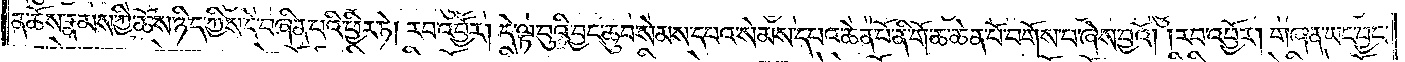ན་ཆོས་རྣམས་ཀྱི་ཆོས་ཉིད་ཀྱིས་དེ་བཞིན་པའི་ཕྱིར་ཏེ། རབ་འབྱོར། དེ་ལྟ་བུའི་བྱང་ཆུབ་སེམས་དཔའ་སེམས་དཔའ་ཆེན་པོ་ནི་གོ་ཆ་ཆེན་པོ་བགོས་པ་ཞེས་བྱའོ། །རབ་འབྱོར། གཞན་ཡང་བྱང་
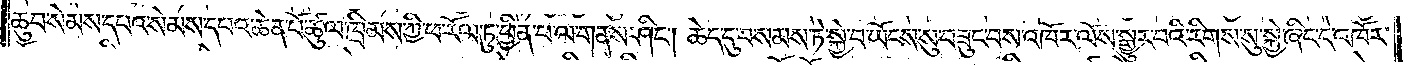ཆུབ་སེམས་དཔའ་སེམས་དཔའ་ཆེན་པོ་ཚུལ་ཁྲིམས་ཀྱི་ཕ་རོལ་ཏུ་ཕྱིན་པ་ལ་གནས་ཤིང༌། ཆེད་དུ་བསམས་ཏེ་སྐྱེ་བ་ཡོངས་སུ་བཟུང་བས་འཁོར་ལོས་སྒྱུར་བའི་རིགས་སུ་སྐྱེ་ཞིང་དེ་འཁོར་
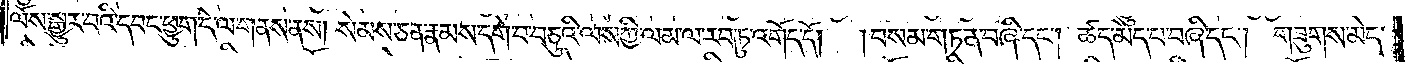ལོས་སྒྱུར་བའི་དབང་ཕྱུག་དེ་ལ་གནས་ནས། སེམས་ཅན་རྣམས་དགེ་བ་བཅུའི་ལས་ཀྱི་ལམ་ལ་རབ་ཏུ་འགོད་དོ། །བསམ་གཏན་བཞི་དང༌། ཚད་མེད་པ་བཞི་དང༌། གཟུགས་མེད་
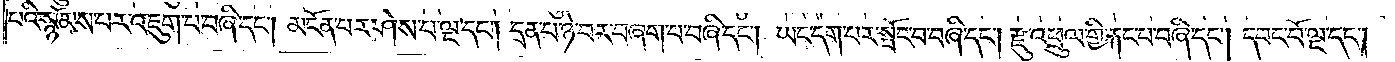པའི་སྙོམས་པར་འཇུག་པ་བཞི་དང༌། མངོན་པར་ཤེས་པ་ལྔ་དང༌། དྲན་པ་ཉེ་བར་བཞག་པ་བཞི་དང༌། ཡང་དག་པར་སྤོང་བ་བཞི་དང༌། རྫུ་འཕྲུལ་གྱི་རྐང་པ་བཞི་དང༌། དབང་པོ་ལྔ་དང༌།
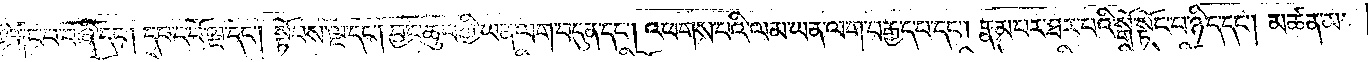གྱི་རྐང་པ་བཞི་དང༌། དབང་པོ་ལྔ་དང༌། སྟོབས་ལྔ་དང༌། བྱང་ཆུབ་ཀྱི་ཡན་ལག་བདུན་དང༌། འཕགས་པའི་ལམ་ཡན་ལག་བརྒྱད་པ་དང༌། རྣམ་པར་ཐར་པའི་སྒོ་སྟོང་པ་ཉིད་དང༌། མཚན་མ་
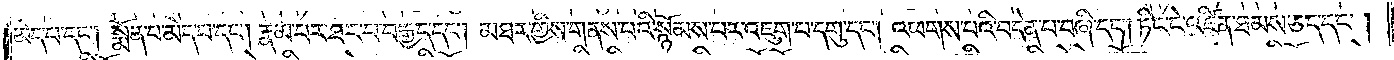མེད་པ་དང༌། སྨོན་པ་མེད་པ་དང༌། རྣམ་པར་ཐར་པ་བརྒྱད་དང༌། མཐར་གྱིས་གནས་པའི་སྙོམས་པར་འཇུག་པ་དགུ་དང༌། འཕགས་པའི་བདེན་པ་བཞི་དང༌། ཏིང་ངེ་འཛིན་ཐམས་ཅད་དང༌།
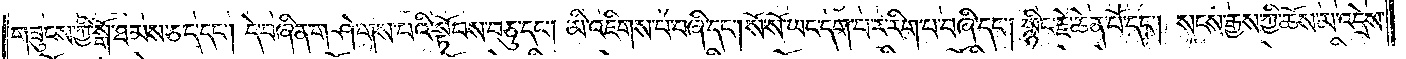གཟུངས་ཀྱི་སྒོ་ཐམས་ཅད་དང༌། དེ་བཞིན་གཤེགས་པའི་སྟོབས་བཅུ་དང༌། མི་འཇིགས་པ་བཞི་དང༌། སོ་སོ་ཡང་དག་པར་རིག་པ་བཞི་དང༌། སྙིང་རྗེ་ཆེན་པོ་དང༌། སངས་རྒྱས་ཀྱི་ཆོས་མ་འདྲེས་
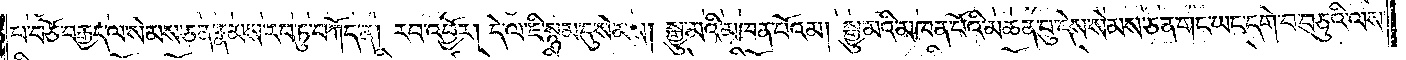པ་བཅོ་བརྒྱད་ལ་སེམས་ཅན་རྣམས་རབ་ཏུ་བཀོད་ན། རབ་འབྱོར། དེ་ལ་ཇི་སྙམ་དུ་སེམས། སྒྱུ་མའི་མཁན་པོའམ། སྒྱུ་མའི་མཁན་པོའི་མཆན་བུ་དེས་སེམས་ཅན་གང་ཡང་དགེ་བ་བཅུའི་ལས་
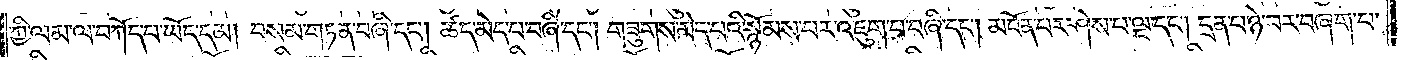ཀྱི་ལམ་ལ་བཀོད་པ་ཡོད་དམ། བསམ་གཏན་བཞི་དང༌། ཚད་མེད་པ་བཞི་དང༌། གཟུགས་མེད་པའི་སྙོམས་པར་འཇུག་པ་བཞི་དང༌། མངོན་པར་ཤེས་པ་ལྔ་དང༌། དྲན་པ་ཉེ་བར་བཞག་པ་
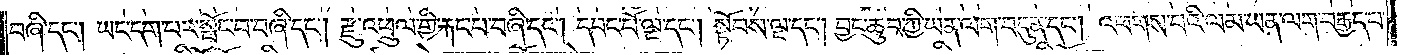བཞི་དང༌། ཡང་དག་པར་སྤོང་བ་བཞི་དང༌། རྫུ་འཕྲུལ་གྱི་རྐང་པ་བཞི་དང༌། དབང་པོ་ལྔ་དང༌། སྟོབས་ལྔ་དང༌། བྱང་ཆུབ་ཀྱི་ཡན་ལག་བདུན་དང༌། འཕགས་པའི་ལམ་ཡན་ལག་བརྒྱད་པ་
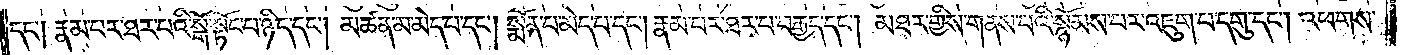དང༌། རྣམ་པར་ཐར་པའི་སྒོ་སྟོང་པ་ཉིད་དང༌། མཚན་མ་མེད་པ་དང༌། སྨོན་པ་མེད་པ་དང༌། རྣམ་པར་ཐར་པ་བརྒྱད་དང༌། མཐར་གྱིས་གནས་པའི་སྙོམས་པར་འཇུག་པ་དགུ་དང༌། འཕགས་
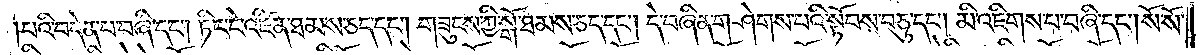པའི་བདེན་པ་བཞི་དང༌། ཏིང་ངེ་འཛིན་ཐམས་ཅད་དང༌། གཟུངས་ཀྱི་སྒོ་ཐམས་ཅད་དང༌། དེ་བཞིན་གཤེགས་པའི་སྟོབས་བཅུ་དང༌། མི་འཇིགས་པ་བཞི་དང༌། སོ་སོ་
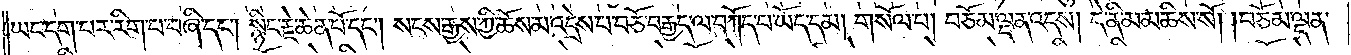ཡང་དག་པར་རིག་པ་བཞི་དང༌། སྙིང་རྗེ་ཆེན་པོ་དང༌། སངས་རྒྱས་ཀྱི་ཆོས་མ་འདྲེས་པ་བཅོ་བརྒྱད་ལ་བཀོད་པ་ཡོད་དམ། གསོལ་པ་བཅོམ་ལྡན་འདས། དེ་ནི་མ་མཆིས་སོ། །བཅོམ་ལྡན་
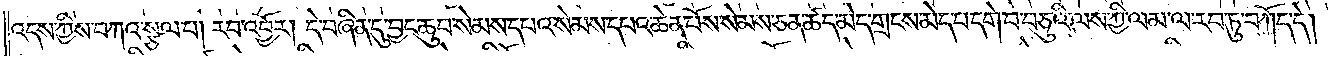འདས་ཀྱིས་བཀའ་སྩལ་པ། རབ་འབྱོར། དེ་བཞིན་དུ་བྱང་ཆུབ་སེམས་དཔའ་སེམས་དཔའ་ཆེན་པོས་སེམས་ཅན་ཚད་མེད་གྲངས་མེད་པ་དགེ་བ་བཅུའི་ལས་ཀྱི་ལམ་ལ་རབ་ཏུ་བཀོད་དེ།
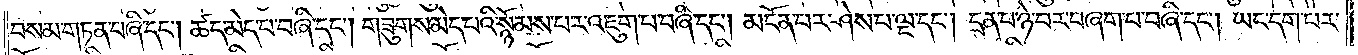བསམ་གཏན་བཞི་དང༌། ཚད་མེད་པ་བཞི་དང༌། གཟུགས་མེད་པའི་སྙོམས་པར་འཇུག་པ་བཞི་དང༌། མངོན་པར་ཤེས་པ་ལྔ་དང༌། དྲན་པ་ཉེ་བར་བཞག་པ་བཞི་དང༌། ཡང་དག་པར་
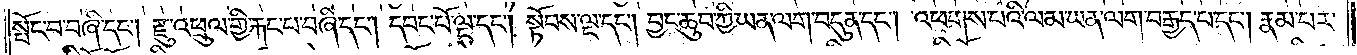སྤོང་བ་བཞི་དང༌། རྫུ་འཕྲུལ་གྱི་རྐང་པ་བཞི་དང༌། དབང་པོ་ལྔ་དང༌། སྟོབས་ལྔ་དང༌། བྱང་ཆུབ་ཀྱི་ཡན་ལག་བདུན་དང༌། འཕགས་པའི་ལམ་ཡན་ལག་བརྒྱད་པ་དང༌། རྣམ་པར་
